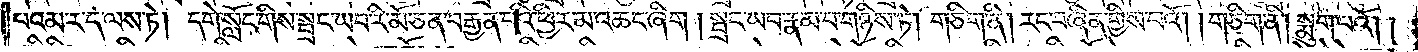པའམ་ར་ད་ལས་ཏེ། དགེ་སློང་གིས་སྦྲང་ཡབ་རི་མོ་ཅན་བརྒྱན་པའི་ཕྱིར་མ་འཆང་ཞིག། སྦྲང་ཡབ་རྣམ་པ་གཉིས་ཏེ། གཅིག་ནི། རང་བཞིན་གྱིས་པའོ། །གཅིག་ནི། སྨུག་པའོ། །
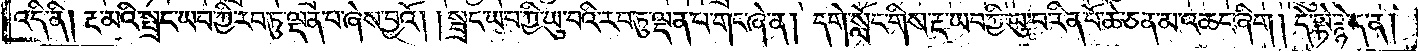འདི་ནི། རྔ་མའི་སྤྲང་ཡབ་ཀྱི་རབ་ཏུ་ལྡན་པ་ཞེས་བྱའོ། །སྦྲང་ཡབ་ཀྱི་ཡུ་བའི་རབ་ཏུ་ལྡན་པ་གང་ཞེ་ན། དགེ་སློང་གིས་རྔ་ཡབ་ཀྱི་ཡུ་བ་རིན་པོ་ཆེ་ཅན་མ་འཆང་ཞིག། དེ་སྟེ་རྙེད་ན།
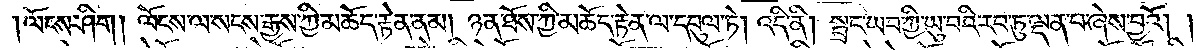ལོངས་ཤིག། ལོངས་ལ་སངས་རྒྱས་ཀྱི་མཆོད་རྟེན་ནམ། ཉན་ཐོས་ཀྱི་མཆོད་རྟེན་ལ་དབུལ་ཏེ། འདི་ནི། སྦྲང་ཡབ་ཀྱི་ཡུ་བའི་རབ་ཏུ་ལྡན་པ་ཞེས་བྱའོ། །
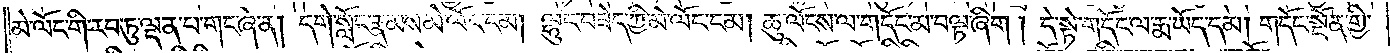མེ་ལོང་གི་རབ་ཏུ་ལྡན་པ་གང་ཞེ་ན། དགེ་སློང་རྣམས་མེ་ལོང་ངམ། ལྷུང་བཟེད་ཀྱི་མེ་ལོང་ངམ། ཆུ་ལོངས་ལ་གདོང་མ་བལྟ་ཞིག། དེ་སྟེ་གདོང་ལ་རྨ་ཡོད་དམ། གདོང་སྔོན་གྱི་
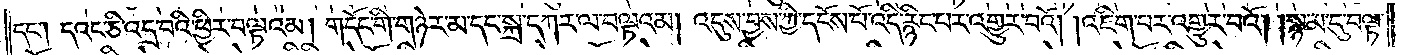དང༌། དའང་ཅི་འདྲ་བའི་ཕྱིར་བལྟའམ། གདོང་གི་གཉེར་མ་དང་སྐྲ་དཀར་ལ་བལྟའམ། འདུས་བྱས་ཀྱི་དངོས་པོ་འདི་རྙིང་པར་འགྱུར་བའོ། །འཇིག་པར་འགྱུར་བའོ། །སྙམ་དུ་བལྟ་
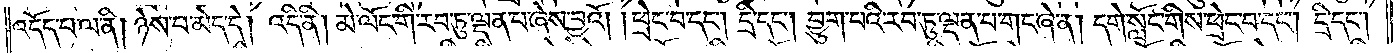འདོད་པ་ལ་ནི། ཉེས་པ་མེད་དེ། འདི་ནི། མེ་ལོང་གི་རབ་ཏུ་ལྡན་པ་ཞེས་བྱའོ། །ཕྲེང་བ་དང༌། དྲི་དང༌། བྱུག་པའི་རབ་ཏུ་ལྡན་པ་གང་ཞེ་ན། དགེ་སློང་གིས་ཕྲེང་བ་དང༌། དྲི་དང༌།
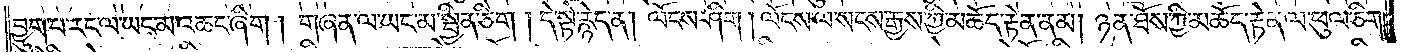བྱུག་པ་རང་ལ་ཡང་མ་འཆང་ཞིག། གཞན་ལ་ཡང་མ་སྦྱིན་ཅིག །དེ་སྟེ་རྙེད་ན། ལོངས་ཤིག། ལོངས་ལ་སངས་རྒྱས་ཀྱི་མཆོད་རྟེན་ནམ། ཉན་ཐོས་ཀྱི་མཆོད་རྟེན་ལ་ཕུལ་ཅིག།
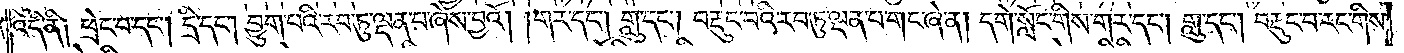འདི་ནི། ཕྲེང་བ་དང༌། དྲི་དང༌། བྱུག་པའི་རབ་ཏུ་ལྡན་པ་ཞེས་བྱའོ། །གར་དང༌། གླུ་དང༌། བརྡུང་བའི་རབ་ཏུ་ལྡན་པ་གང་ཞེ་ན། དགེ་སློང་གིས་གར་དང༌། གླུ་དང༌། བརྡུང་བ་རང་གིས་
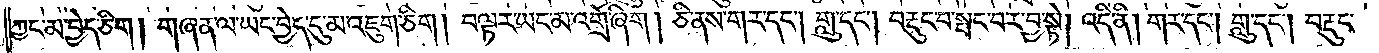ཀྱང་མ་བྱེད་ཅིག། གཞན་ལ་ཡང་བྱེད་དུ་མ་འཇུག་ཅིག། བལྟར་ཡང་མ་འགྲོ་ཞིག། ཅི་ནས་གར་དང༌། གླུ་དང༌། བརྡུང་བ་སྤང་བར་བྱ་སྟེ། འདི་ནི། གར་དང༌། གླུ་དང༌། བརྡུང་
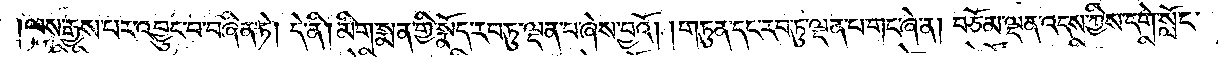ལས་རྒྱས་པར་འབྱུང་བ་བཞིན་ཏེ། དེ་ནི། མིག་སྨན་གྱི་སྣོད་རབ་ཏུ་ལྡན་པ་ཞེས་བྱའོ། །གཏུན་དང་རབ་ཏུ་ལྡན་པ་གང་ཞེ་ན། བཅོམ་ལྡན་འདས་ཀྱིས་དགེ་སློང་
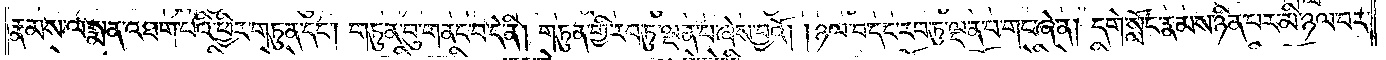རྣམས་ལ་སྨན་འཐག་པའི་ཕྱིར་གཏུན་དང༌། གཏུན་བུ་གནང་བ་དེ་ནི། གཏུན་གྱི་རབ་ཏུ་ལྡན་པ་ཞེས་བྱའོ། །ཉལ་བ་དང་རབ་ཏུ་ལྡན་པ་གང་ཞེ་ན། དགེ་སློང་རྣམས་ཉིན་པར་མི་ཉལ་བར་
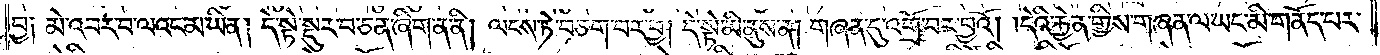བྱ༑ མེ་འབར་བ་ལའང་མ་ཡིན། དེ་སྟེ་སྡུར་བ་ཅན་ཞིག་ན་ནི། ལངས་ཏེ་བཅག་པར་བྱ། དེ་སྟེ་མི་ནུས་ན། གཞན་དུ་འགྲོ་བར་བྱའོ། །དེའི་རྐྱེན་གྱིས་གཞན་ལ་ཡང་མི་གནོད་པར་
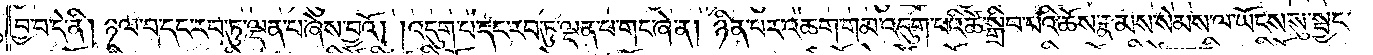བྱ་བ་དེ་ནི། ཉལ་བ་དང་རབ་ཏུ་ལྡན་པ་ཞེས་བྱའོ། །འདུག་པ་དང་རབ་ཏུ་ལྡན་པ་གང་ཞེ་ན། ཉིན་པར་འཆག་གམ་འདུག་པའི་ཚེ་སྒྲིབ་པའི་ཆོས་རྣམས་སེམས་ལ་ཡོངས་སུ་སྦྱང་
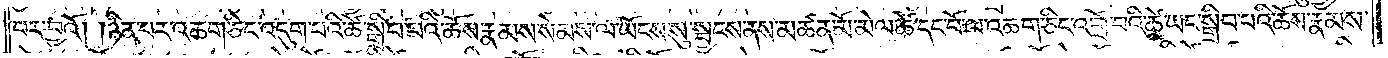བར་བྱའོ། །ཉིན་པར་འཆག་ཅིང་འདུག་པའི་ཚེ་སྒྲིབ་པའི་ཆོས་རྣམས་སེམས་ལ་ཡོངས་སུ་སྦྱངས་ནས་མཚན་མོ་མེལ་ཚེ་དང་པོ་ལ་འཆག་ཅིང་འགྲོ་བའི་ཚེ་ཡང་སྒྲིབ་པའི་ཆོས་རྣམས་
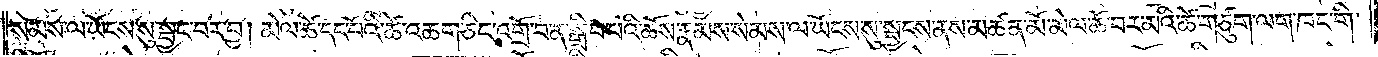སེམས་ལ་ཡོངས་སུ་སྦྱང་བར་བྱ། མེལ་ཚེ་དང་པོའི་ཚེ་འཆག་ཅིང་འགྲོ་བ་ན་སྒྲིབ་པའི་ཆོས་རྣམས་སེམས་ལ་ཡོངས་སུ་སྦྱངས་ནས་མཚན་མོ་མེལ་ཚེ་བར་མའི་ཚེ་གཙུག་ལག་ཁང་གི་
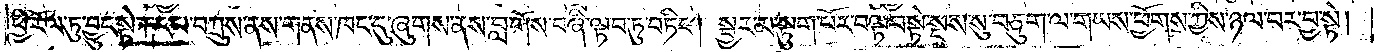ཕྱི་རོལ་ཏུ་བྱུང་སྟེ་རྐང་པ་བཀྲུས་ནས་གནས་ཁང་དུ་ཞུགས་ནས་བླ་གོས་བཞི་ལྟབ་ཏུ་བཏིང༌། སྦྱར་མ་སྟུག་པོར་བལྟབ་སྟེ་སྔས་སུ་བཅུག་ལ་གཡས་ཕྱོགས་ཀྱིས་ཉལ་བར་བྱ་སྟེ།
